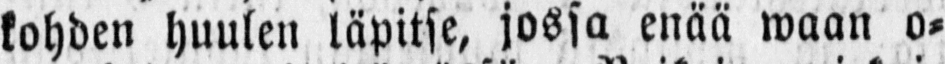kohden huulen läpitse, jossa enää waan o-
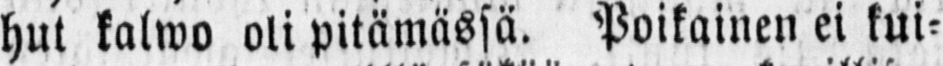hut kalwo oli pitämässä. Poikainen ei kui-
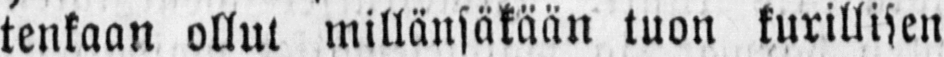tenkaan ollut millänsäkään tuon kurillisen
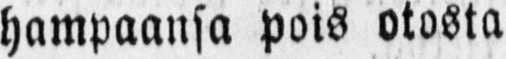hampaansa pois otosta
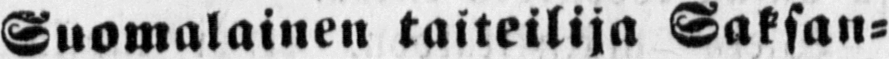Suomalainen taiteilija Saksan-
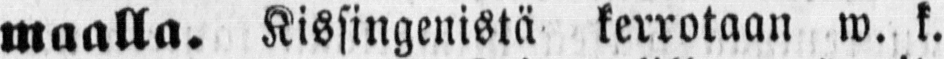maalla. Kissingenistä kerrotaan w. k.
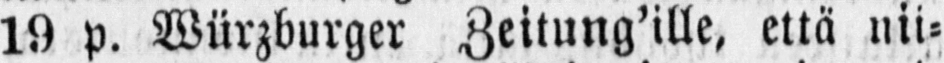19 p. Würzburger Zeitung’ille, että nii-
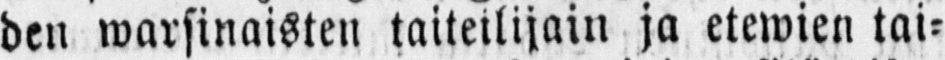den warsinaisten taiteilijain ja etewien tai-
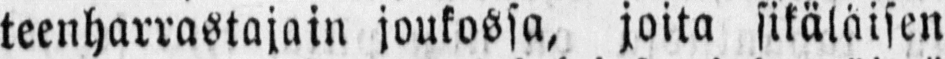teenharrastajain joukossa, joita sikäläisen
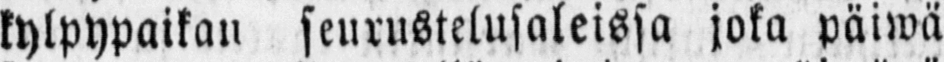kylpypaikan seurustelusaleissa joka päiwä
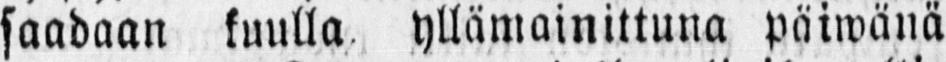saadaan kuulla yllämainittuna päiwänä
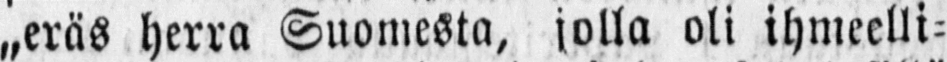„eräs herra Suomesta, jolla oli ihmeelli-
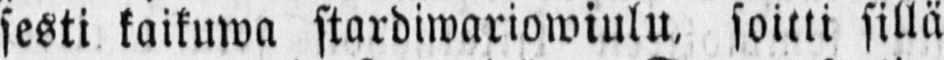sesti kaikuwa stardiwariowiulu, soitti sillä
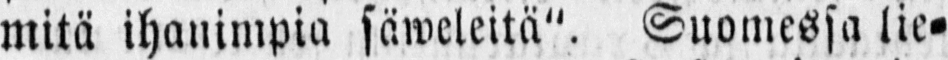mitä ihanimpia säweleitä". Suomessa lie-
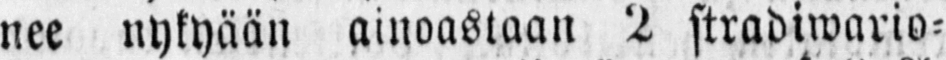nee nykyään ainoastaan 2 stradiwario-
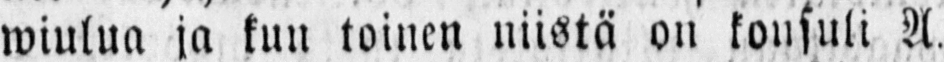wiulua ja kun toinen niistä on konsuli A.
